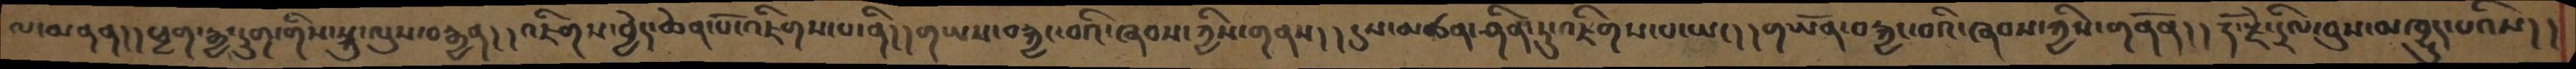ལ་མནན།།ཕྱག་རྒྱ་དྲུག་གིས་སྐུ་ལུས་བརྒྱན།། འཇིགས་བྱེད་ཆེན་པོ་འཇིགས་པ་ནི།། གཡས་བརྐྱང་བའི་ཞབས་ཀྱིས་གནས།། དུས་མཚན་ཤིན་ཏུ་འཇིགས་པ་ཡང།།གཡོན་བརྐྱང་བའི་ཞབས་ཀྱིས་གནོན།།རྡོ་རྗེ་དྲིལ་བུས་མཁྱུད་པའིས།།
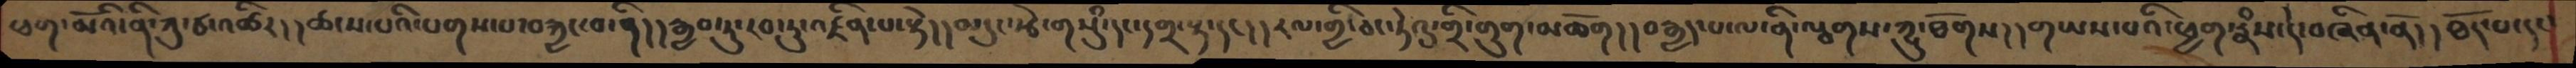ཕག་མོའི་ནི་ཀུ་ཙ་འཚིར།། ཚངས་པའི་པགས་པ་བརྐྱང་བ་ནི།།རྒྱབ་ཏུ་རབ་ཏུ་འཛིན་པ་སྟེ།།མདུང་རྩེ་གསུཾ་དང་དགྲ་སྟ་དང།།རལ་གྲི་ཅང་ཏེའུ་གྲི་གུག་མཆོག།། བརྒྱད་པ་ལ་ནི་ལྕགས་ཀྱུ་ཐོགས།།གཡས་པའི་ཕྱག་རྣཾས་དེ་བཞིན་ནོ།།ཐོད་པ་དང་
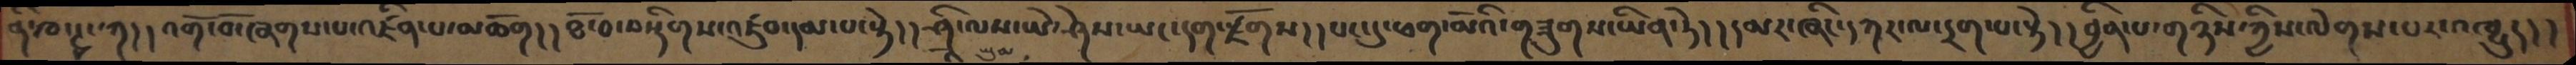ན་ཁ་ཊྭང་ཀ། །འགོ་བོ་ཞག་པ་འཛིན་པ་མཆོག། །ཐོ་བ་བསྡིགས་འཛུབ་དམ་པ་སྟེ། །ཤྲཱི་ལས་ཡེ་ཤེས་ཡང་དག་རྫོགས། །པང་དུ་ཕག་མོའི་གཟུགས་ཡིན་ཏེ། །དམར་ཞིང་དཀར་ལ་དྲག་པ་སྟེ། །བྱིན་པ་གཉིས་ཀྱིས་ལེགས་པར་འཁྱུད། །
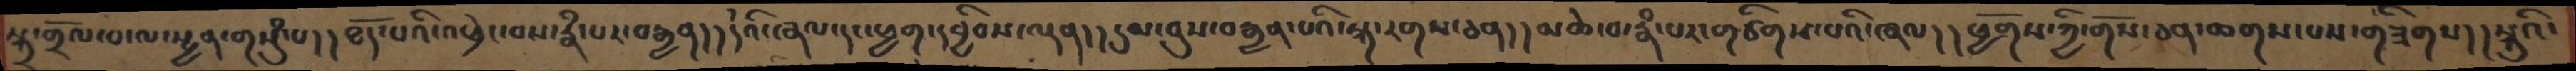སྐྲ་གྲོལ་བ་ལ་སྤྱན་གསུཾ་པ།།ཐོད་པའི་འཕྲེང་བས་རྣཾ་པར་བརྒྱན།།དེའི་ཞལ་དང་ཕྱག་དབྱིབས་ལྡན།།དུམ་བུས་བརྒྱན་པའི་སྐ་རགས་ཅན།།མཆེ་བ་རྣཾ་པར་གཙིགས་པའི་ཞལ།།ཕྱོགས་ཀྱི་གོས་ཅན་ཆགས་པས་གཟིགས།།སྐུའི་
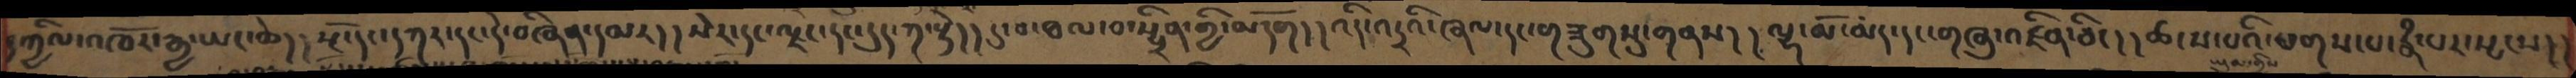དཀྱིལ་འཁོར་རྒྱ་ཡང་ཆེ། །སྔོ་དང་དཀར་དང་དེ་བཞིན་དམར། །སེར་དང་ལྗང་དང་དུད་ཀ་སྟེ། །དུ་བ་ཐལ་བ་སྤྲིན་གྱི་མདོག། །འདི་འདྲའི་ཞལ་དང་གཟུགསུ་གནས། །ལྷ་མོ་མད་དང་གཞུ་འཛིན་ཅིང། །ཚངས་པའི་པགས་པ་རྣཾ་པར་སྤངས། །
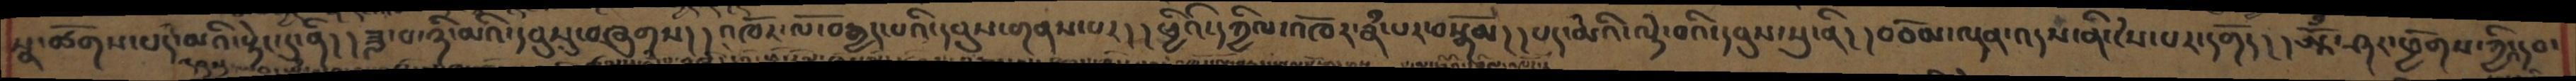སྣ་ཚོགས་པད་མའི་སྟེང་དུ་ནི། །ཟླ་བ་ཉི་མའི་དབུསུ་བཞུགས། །འཁོར་ལོ་བརྒྱད་པའི་དབུས་གནས་པར། །ཕྱིའི་དཀྱིལ་འཁོར་རྣཾ་པར་བསྒོམ། །པད་མེའི་ལྟེ་བའི་དབུས་སུ་ནི། །བཅོམ་ལྡན་འདས་ནི་ངེས་པར་དགོད། །ཨཱོྃ་ཤར་ཕྱོགས་ཀྱི་འདབ་
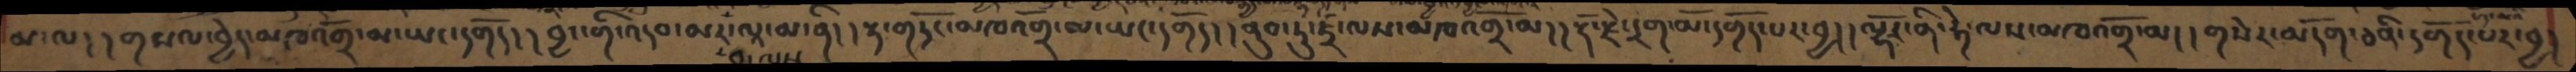མ་ལ། །གསལ་བྱེད་མཁའགྲོ་མ་ཡང་དགོད། །བྱང་གི་འདབ་མར་ལཱ་མ་ནི། །རྟ་གདོང་མཁའགྲོ་མ་ཡང་དགོད། །ནུབ་ཏུ་ཛྲ་ལས་མཁའགྲོ་མ། །རྡོ་རྗེ་དྲག་མོ་དགོད་་པར་བྱ། །ལྷོར་ནི་ཧེ་ལས་མཁའགྲོ་མ། །གསེར་མདོག་ཅནི་དགོད་པར་བྱ།
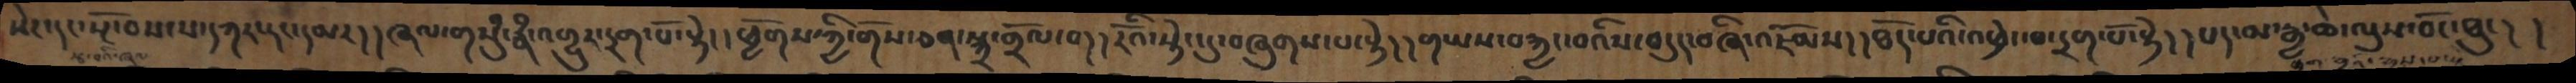སེར་དང་སྔོ་བས་ས་དཀར་དང་དམར། །ཞལ་གསུཾ་རྣཾ་འགྱུར་དྲག་པོ་སྟེ། །ཕྱོགས་ཀྱི་གོས་ཅན་སྐྲ་གྲོལ་བ། །རོའི་སྟེང་དུ་བཞུགས་པ་སྟེ། །གཡས་བརྐྱང་བའིས་བདུད་བཞི་འཇོམས། །ཐོད་པའི་འཕྲེང་བ་དྲག་པོ་སྟེ། །པད་མ་རྒྱ་ཆེ་ལུས་བོང་ཐུང། །
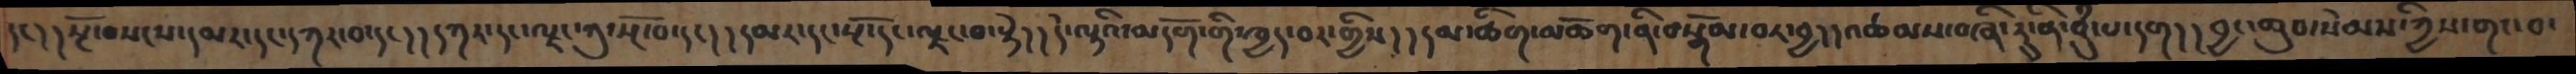དང།།སྔོ་བསངས་དམར་དང་དཀར་བ་དང།།དཀར་དང་ལྗང་ཀུ་སྔོ་བ་དང། །དམར་དང་སྔོ་དང་ལྗང་བ་སྟེ། །དེ་ལྟའི་མདོག་གི་ཁྱད་བར་གྱིས། །དམ་ཚིག་མཆོག་ནི་བསྒོམ་བར་བྱ། །འཚམས་བཞི་རུ་ནི་བུཾ་པ་དག།།བྱང་ཆུབ་སེམས་ཀྱིས་གང་བ་
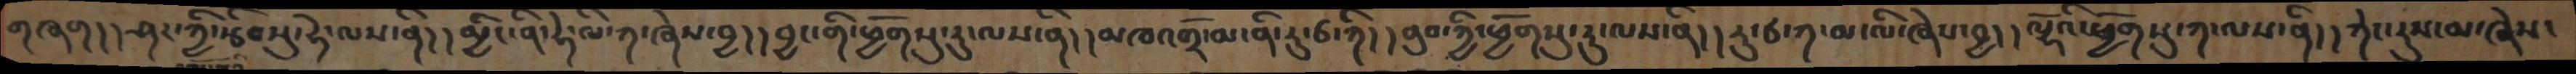གཞག། །ཤར་ཀྱི་རྩིབསུ་ཧེ་ལས་ནི། །མྱིང་ནི་ཧེ་ལི་ཀ་ཞེས་བྱ། །བྱང་གི་ཕྱོགསུ་རུ་ལས་ནི། །མཁའགྲོ་མ་ནི་རུ་ཙ་ཀི། །ནུབ་ཀྱི་ཕྱོགསུ་རུ་ལས་ནི། །རུ་ཙ་ཀ་མ་ལི་ཞེས་བྱ། །ལྷོའི་ཕྱོགསུ་ཀ་ལས་ནི། །ཀེང་རུས་མ་ཞེས་
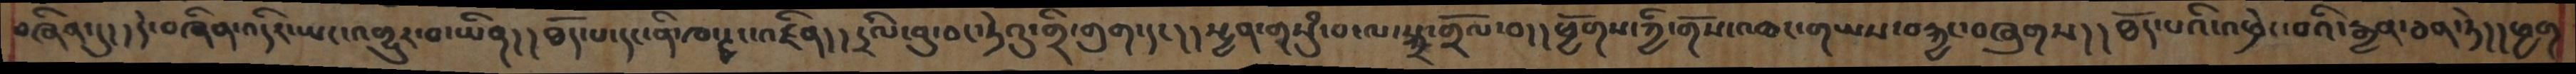བཞིན་དུ། །དེ་བཞིན་འདིར་ཡང་འགྱུར་བ་ཡིན། །ཐོད་པ་དང་ནི་ཁ་ཊྭང་འཛིན། །དྲིལ་བུ་ཅང་ཏེའུ་གྲི་གུག་དང། །སྤྱན་གསུཾ་པ་ལ་སྐྲ་གྲོལ་བ།།ཕྱོགས་ཀྱི་གོས་འཆང་གཡས་བརྐྱང་བཞུགས། །ཐོད་པའི་འཕྲེང་བའི་རྒྱན་ཅན་ཏེ།།ཕྱག
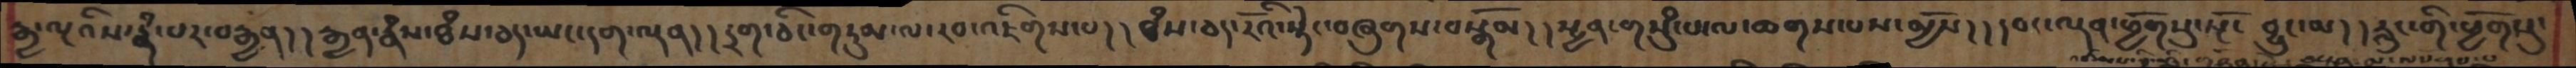རྒྱ་ལྔའིས་རྣཾ་པར་བརྒྱན། །རྒྱན་རྣཾས་ཐཾས་ཅད་ཡང་དག་ལྡན། །དྲག་ཅིང་གཏུམ་ལ་རབ་འཇིགས་པ། །ཐཾས་ཅད་རོའི་སྟེང་བཞུགས་བསྒོམ། །སྤྱན་གསུཾ་པ་ལ་ཆགས་པས་མྱོས། །དབང་ལྡན་ཕྱོགསུ་སྔོ་བྱུང་མ། །རླུང་གི་ཕྱོགསུ་
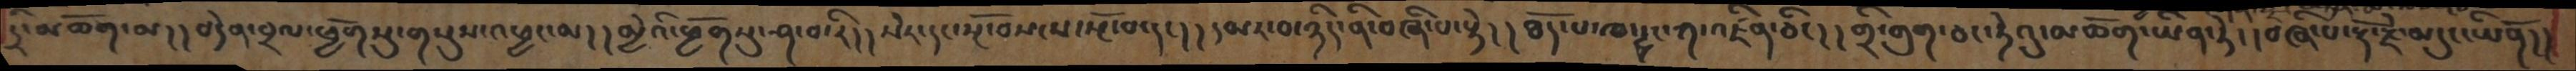དྲི་མཆོག་མ། །བདེན་བྲལ་ཕྱོགསུ་གསུས་འཕྱང་མ། །མྱེའི་ཕྱོགསུ་ཤ་བ་རི། །སེར་དང་སྔོ་བསངས་སྔོ་བ་དང། །དམར་བ་ཉིད་ནི་བཞི་པ་སྟེ། །ཐོད་པ་ཁ་ཊྭང་ཀ་འཛིན་ཅིང། །གྲི་གུག་ཅང་ཏེའུ་མཆོག་ཡིན་ཏེ། །བཞི་པ་རྡོ་རྗེ་མདུང་ཡིནོ། །
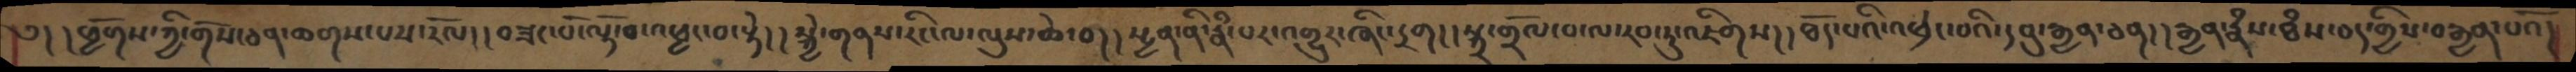༅། །ཕྱོགས་ཀྱི་གོས་ཅན་ཆགས་པས་རོལ།།བཟང་པོ་ལྟོ་བ་འཕྱང་བ་སྟེ།།སྐྱེ་གནས་རིང་ལ་ལུས་ཆེ་བ།།ཕྱག་ནི་རྣཾ་པར་འགྱུར་ཞིང་དྲག།།སྐྲ་གྲོལ་བ་ལ་རབ་ཏུ་འཇིགས།།ཐོད་པའི་འཕྲེང་བའི་དབུ་རྒྱན་བཤད།།རྒྱན་རྣཾས་ཐཾས་ཅད་གྱིས་བརྒྱན་པའོ།
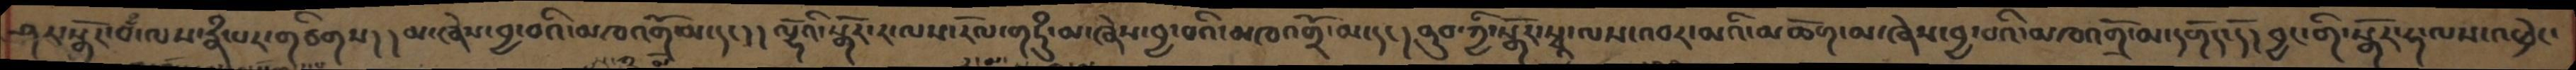ཤར་སྒོར་བྃ་ལས་རྣཾ་པར་གཙིགས། །མ་ཞེས་བྱ་བའི་མཁའགྲོ་མ་དང། །ལྷོའི་སྒོར་ར་ལས་རོལ་གཏུཾ་མ་ཞེས་བྱ་བའི་མཁའགྲོ་མ་དང། །ནུབ་ཀྱི་སྒོར་སྭཱ་ལས་འབར་མའི་མཆོག་མ་ཞེས་བྱ་བའི་མཁའགྲོ་མ་དགོད་དོ། བྱང་གི་སྒོར་ཧ་ལས་འཕྲེང་
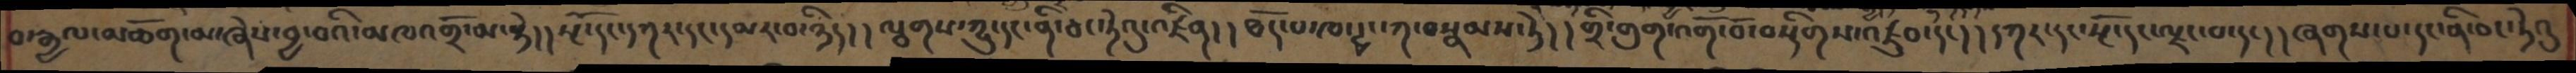བ་རྒྱལ་མཆོག་མ་ཞེས་བྱ་བའི་མཁའགྲོ་མ་སྟེ། །སྔོ་དང་དཀར་དང་དམར་བ་ཉིད། །ལྕགས་ཀྱུ་དང་ནི་ཅང་ཏེའུ་འཛིན། །ཐོད་པ་ཁ་ཊྭང་ཀ་བསྣམས་ཏེ། །གྲི་གུག་འགོ་བོ་བསྡིགས་འཛུབ་དང། །དཀར་དང་སྔོ་དང་ལྗང་པ་དང། །ཞགས་པ་དང་ནི་ཅང་ཏེའུ
